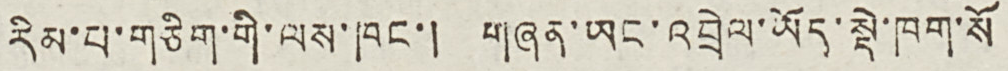རིམ་པ་གཅིག་གི་ལས་ཁང་། གཞན་ཡང་འབྲེལ་ཡོད་སྡེ་ཁག་སོ
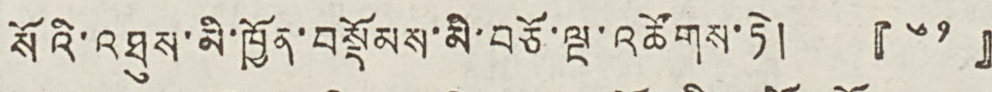སོའི་འཐུས་མི་ཁྱོན་བསྡོམས་མི་བཅོ་ལྔ་འཚོགས་ཏེ། 『༦༡』
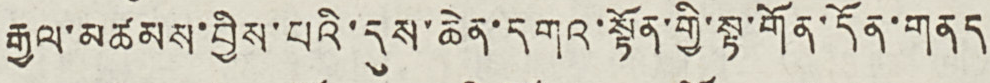རྒྱལ་མཚམས་བྱིས་པའི་དུས་ཆེན་དགའ་སྟོན་གྱི་སྟ་གོན་དོན་གནད
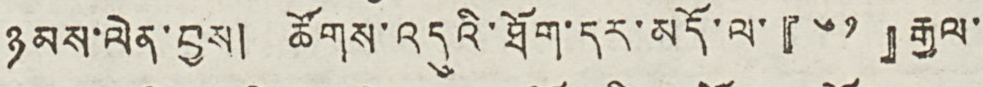ཉམས་ལེན་བྱས། ཚོགས་འདུའི་ཐོག་དར་མདོ་ལ་『༦༡』རྒྱལ་
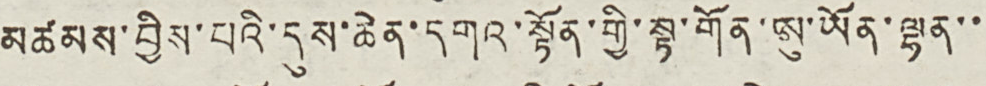མཚམས་བྱིས་པའི་དུས་ཆེན་དགའ་སྟོན་གྱི་སྟ་གོན་ཨུ་ཡོན་ལྷན་་
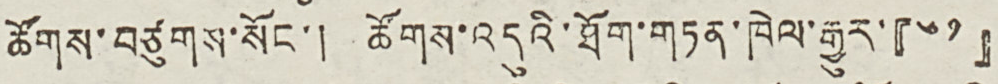ཚོགས་བཙུགས་སོང་། ཚོགས་འདུའི་ཐོག་གཏན་ཁེལ་རྒྱུར་『༦༡』
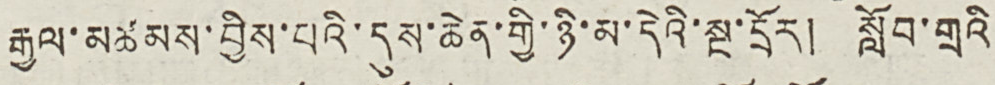རྒྱལ་མཚམས་བྱིས་པའི་དུས་ཆེན་གྱི་ཉི་མ་དེའི་སྔ་དྲོར། སློབ་གྲའི་
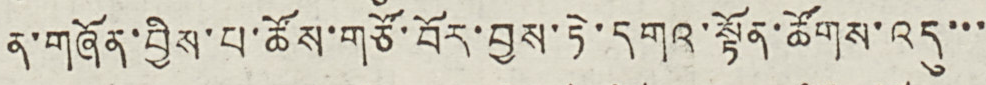ན་གཞོན་བྱིས་པ་ཚོས་གཙོ་བོར་བྱས་ཏེ་དགའ་སྟོན་ཚོགས་འདུ་་་
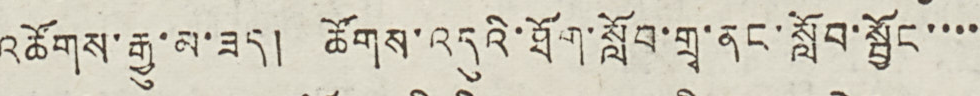འཚོགས་རྒྱུ་མ་ཟད། ཚོགས་འདུའི་ཐོག་སློབ་གྲྭ་ནང་སློབ་སྦྱོང་་་་
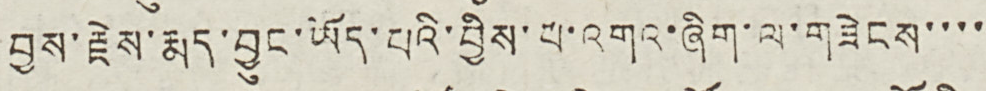བྱས་རྗེས་རྨད་བྱུང་ཡོད་པའི་བྱིས་པ་འགའ་ཞིག་ལ་གཟེངས་་་་
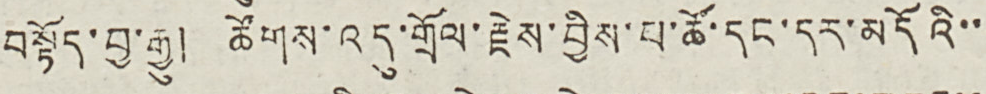བསྟོད་བྱ་རྒྱུ། ཚོགས་འདུ་གྲོལ་རྗེས་བྱིས་པ་ཚོ་དང་དར་མདོའི་་
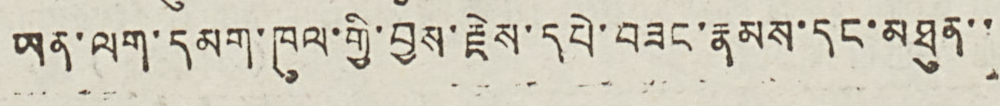ཡན་ལག་དམག་ཁུལ་གྱི་བྱས་རྗེས་དཔེ་བཟང་རྣམས་དང་མཐུན་་
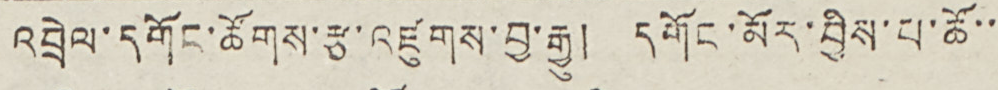འབྲེལ་དགོང་ཚོགས་རྩ་འཛུགས་བྱ་རྒྱུ། དགོང་མོར་བྱིས་པ་ཚོ་་
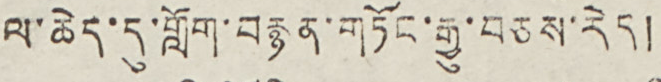ལ་ཆེད་དུ་གློག་བརྙན་གཏོང་རྒྱུ་བཅས་རེད།
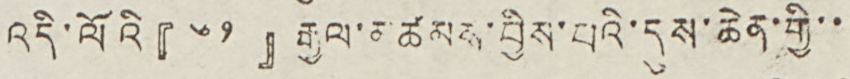འདི་ལོའི『༦༡ 』རྒྱལ་མཚམས་བྱིས་པའི་དུས་ཆེན་གྱི་་
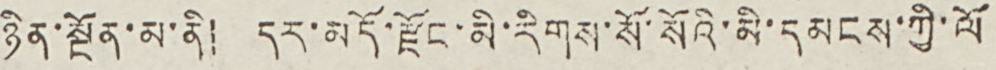ཉིན་སྔོན་མ་ནི། དར་མདོ་རྫོང་མི་རིགས་སོ་སོའི་མི་དམངས་ཀྱི་ལོ
